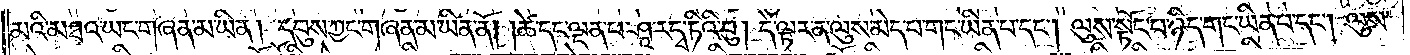མའི་མཐའ་ཡང་གཞན་མ་ཡིན། དབུས་ཀྱང་གཞན་མ་ཡིན་ནོ། །ཚེ་དང་ལྡན་པ་ཤཱ་རདྭ་ཏིའི་བུ། དེ་ལྟར་ན་ལུས་མེད་པ་གང་ཡིན་པ་དང༌། ལུས་སྟོང་པ་ཉིད་གང་ཡིན་པ་དང༌། ལུས་
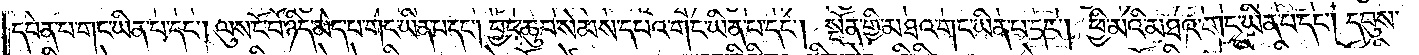དབེན་པ་གང་ཡིན་པ་དང༌། ལུས་ངོ་བོ་ཉིད་མེད་པ་གང་ཡིན་པ་དང༌། བྱང་ཆུབ་སེམས་དཔའ་གང་ཡིན་པ་དང༌། སྔོན་གྱི་མཐའ་གང་ཡིན་པ་དང༌། ཕྱི་མའི་མཐའ་གང་ཡིན་པ་དང༌། དབུས་
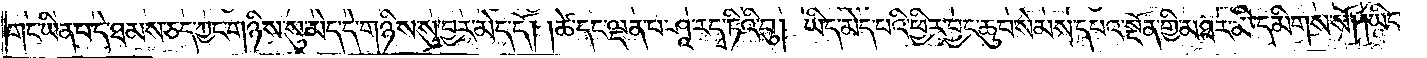གང་ཡིན་པ་དེ་ཐམས་ཅད་ཀྱང་གཉིས་སུ་མེད་དེ་གཉིས་སུ་བྱར་མེད་དོ། །ཚེ་དང་ལྡན་པ་ཤཱ་རདྭ་ཏིའི་བུ། ཡིད་མེད་པའི་ཕྱིར་བྱང་ཆུབ་སེམས་དཔའ་སྔོན་གྱི་མཐར་མི་དམིགས་སོ། །ཡིད་
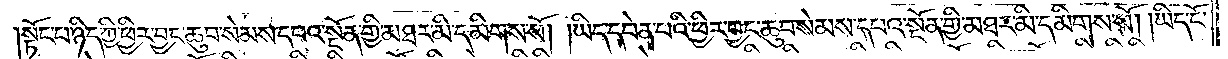སྟོང་པ་ཉིད་ཀྱི་ཕྱིར་བྱང་ཆུབ་སེམས་དཔའ་སྔོན་གྱི་མཐར་མི་དམིགས་སོ། །ཡིད་དབེན་པའི་ཕྱིར་བྱང་ཆུབ་སེམས་དཔའ་སྔོན་གྱི་མཐར་མི་དམིགས་སོ། །ཡིད་ངོ་
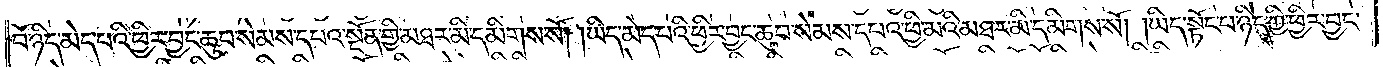བོ་ཉིད་མེད་པའི་ཕྱིར་བྱང་ཆུབ་སེམས་དཔའ་སྔོན་གྱི་མཐར་མི་དམིགས་སོ། །ཡིད་མེད་པའི་ཕྱིར་བྱང་ཆུབ་སེམས་དཔའ་ཕྱི་མའི་མཐར་མི་དམིགས་སོ། །ཡིད་སྟོང་པ་ཉིད་ཀྱི་ཕྱིར་བྱང་
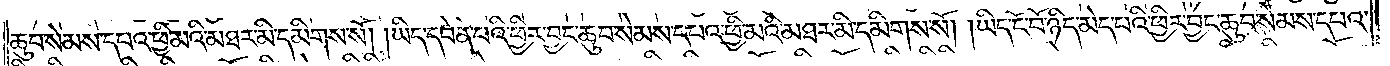ཆུབ་སེམས་དཔའ་ཕྱི་མའི་མཐར་མི་དམིགས་སོ། །ཡིད་དབེན་པའི་ཕྱིར་བྱང་ཆུབ་སེམས་དཔའ་ཕྱི་མའི་མཐར་མི་དམིགས་སོ། །ཡིད་ངོ་བོ་ཉིད་མེད་པའི་ཕྱིར་བྱང་ཆུབ་སེམས་དཔའ་
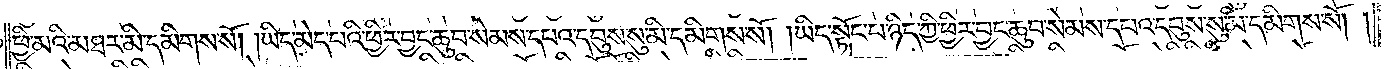ཕྱི་མའི་མཐར་མི་དམིགས་སོ། །ཡིད་མེད་པའི་ཕྱིར་བྱང་ཆུབ་སེམས་དཔའ་དབུས་སུ་མི་དམིགས་སོ། །ཡིད་སྟོང་པ་ཉིད་ཀྱི་ཕྱིར་བྱང་ཆུབ་སེམས་དཔའ་དབུས་སུ་མི་དམིགས་སོ། །
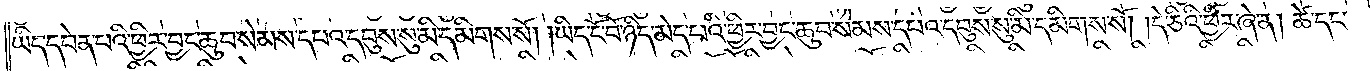ཡིད་དབེན་པའི་ཕྱིར་བྱང་ཆུབ་སེམས་དཔའ་དབུས་སུ་མི་དམིགས་སོ། །ཡིད་ངོ་བོ་ཉིད་མེད་པའི་ཕྱིར་བྱང་ཆུབ་སེམས་དཔའ་དབུས་སུ་མི་དམིགས་སོ། །དེ་ཅིའི་ཕྱིར་ཞེ་ན། ཚེ་དང་
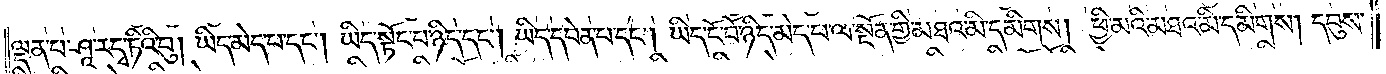ལྡན་པ་ཤཱ་རདྭ་ཏིའི་བུ། ཡིད་མེད་པ་དང༌། ཡིད་སྟོང་པ་ཉིད་དང༌། ཡིད་དབེན་པ་དང༌། ཡིད་ངོ་བོ་ཉིད་མེད་པ་ལ་སྔོན་གྱི་མཐའ་མི་དམིགས། ཕྱི་མའི་མཐའ་མི་དམིགས། དབུས་
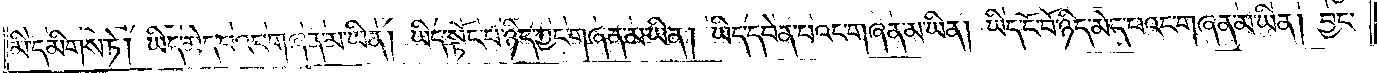མི་དམིགས་ཏེ། ཡིད་མེད་པའང་གཞན་མ་ཡིན། ཡིད་སྟོང་པ་ཉིད་ཀྱང་གཞན་མ་ཡིན། ཡིད་དབེན་པའང་གཞན་མ་ཡིན། ཡིད་ངོ་བོ་ཉིད་མེད་པའང་གཞན་མ་ཡིན། བྱང་
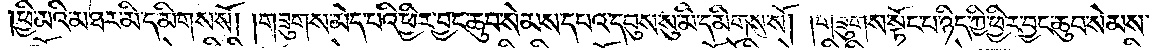ཕྱི་མའི་མཐར་མི་དམིགས་སོ། །གཟུགས་མེད་པའི་ཕྱིར་བྱང་ཆུབ་སེམས་དཔའ་དབུས་སུ་མི་དམིགས་སོ། །གཟུགས་སྟོང་པ་ཉིད་ཀྱི་ཕྱིར་བྱང་ཆུབ་སེམས་
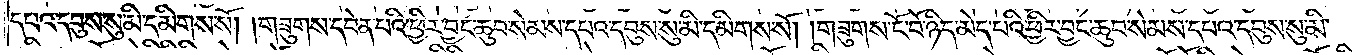དཔའ་དབུས་སུ་མི་དམིགས་སོ། །གཟུགས་དབེན་པའི་ཕྱིར་བྱང་ཆུབ་སེམས་དཔའ་དབུས་སུ་མི་དམིགས་སོ། །གཟུགས་ངོ་བོ་ཉིད་མེད་པའི་ཕྱིར་བྱང་ཆུབ་སེམས་དཔའ་དབུས་སུ་མི་
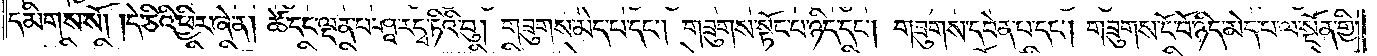དམིགས་སོ། །དེ་ཅིའི་ཕྱིར་ཞེ་ན། ཚེ་དང་ལྡན་པ་ཤཱ་རདྭ་ཏིའི་བུ། གཟུགས་མེད་པ་དང༌། གཟུགས་སྟོང་པ་ཉིད་དང༌། གཟུགས་དབེན་པ་དང༌། གཟུགས་ངོ་བོ་ཉིད་མེད་པ་ལ་སྔོན་གྱི་
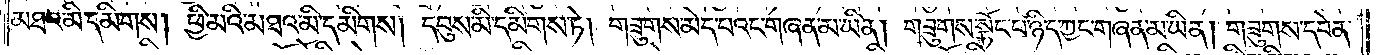མཐའ་མི་དམིགས། ཕྱི་མའི་མཐའ་མི་དམིགས། དབུས་མི་དམིགས་ཏེ། གཟུགས་མེད་པའང་གཞན་མ་ཡིན། གཟུགས་སྟོང་པ་ཉིད་ཀྱང་གཞན་མ་ཡིན། གཟུགས་དབེན་
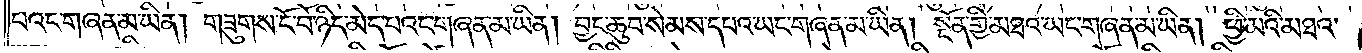པའང་གཞན་མ་ཡིན། གཟུགས་ངོ་བོ་ཉིད་མེད་པའང་གཞན་མ་ཡིན། བྱང་ཆུབ་སེམས་དཔའ་ཡང་གཞན་མ་ཡིན། སྔོན་གྱི་མཐའ་ཡང་གཞན་མ་ཡིན། ཕྱི་མའི་མཐའ་
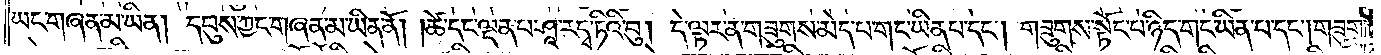ཡང་གཞན་མ་ཡིན། དབུས་ཀྱང་གཞན་མ་ཡིན་ནོ། །ཚེ་དང་ལྡན་པ་ཤཱ་རདྭ་ཏིའི་བུ། དེ་ལྟར་ན་གཟུགས་མེད་པ་གང་ཡིན་པ་དང༌། གཟུགས་སྟོང་པ་ཉིད་གང་ཡིན་པ་དང༌། གཟུགས་
